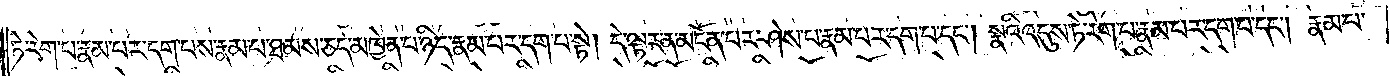ཏེ་རེག་པ་རྣམ་པར་དག་པས་རྣམ་པ་ཐམས་ཅད་མཁྱེན་པ་ཉིད་རྣམ་པར་དག་པ་སྟེ། དེ་ལྟར་ན་མངོན་པར་ཤེས་པ་རྣམ་པར་དག་པ་དང༌། སྣའི་འདུས་ཏེ་རེག་པ་རྣམ་པར་དག་པ་དང༌། རྣམ་པ་
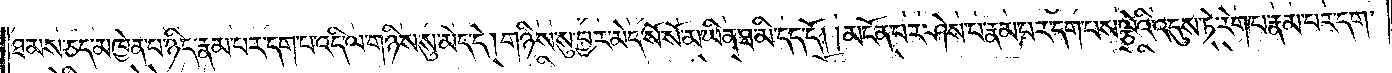ཐམས་ཅད་མཁྱེན་པ་ཉིད་རྣམ་པར་དག་པ་འདི་ལ་གཉིས་སུ་མེད་དེ། གཉིས་སུ་བྱར་མེད་སོ་སོ་མ་ཡིན་ཐ་མི་དད་དོ། །མངོན་པར་ཤེས་པ་རྣམ་པར་དག་པས་ལྕེའི་འདུས་ཏེ་རེག་པ་རྣམ་པར་དག་
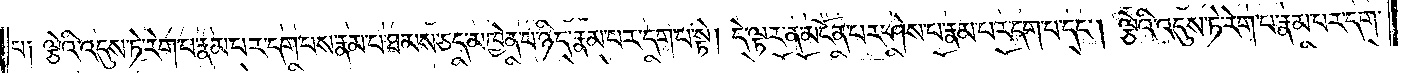པ༑ ལྕེའི་འདུས་ཏེ་རེག་པ་རྣམ་པར་དག་པས་རྣམ་པ་ཐམས་ཅད་མཁྱེན་པ་ཉིད་རྣམ་པར་དག་པ་སྟེ། དེ་ལྟར་ན་མངོན་པར་ཤེས་པ་རྣམ་པར་དག་པ་དང༌། ལྕེའི་འདུས་ཏེ་རེག་པ་རྣམ་པར་དག་
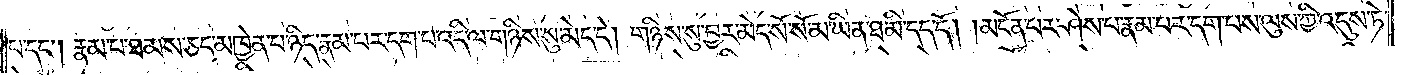པ་དང༌། རྣམ་པ་ཐམས་ཅད་མཁྱེན་པ་ཉིད་རྣམ་པར་དག་པ་འདི་ལ་གཉིས་སུ་མེད་དེ། གཉིས་སུ་བྱར་མེད་སོ་སོ་མ་ཡིན་ཐ་མི་དད་དོ། །མངོན་པར་ཤེས་པ་རྣམ་པར་དག་པས་ལུས་ཀྱི་འདུས་ཏེ་
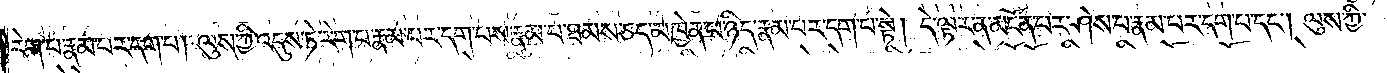རེག་པ་རྣམ་པར་དག་པ། ལུས་ཀྱི་འདུས་ཏེ་རེག་པ་རྣམ་པར་དག་པས་རྣམ་པ་ཐམས་ཅད་མཁྱེན་པ་ཉིད་རྣམ་པར་དག་པ་སྟེ། དེ་ལྟར་ན་མངོན་པར་ཤེས་པ་རྣམ་པར་དག་པ་དང༌། ལུས་ཀྱི་
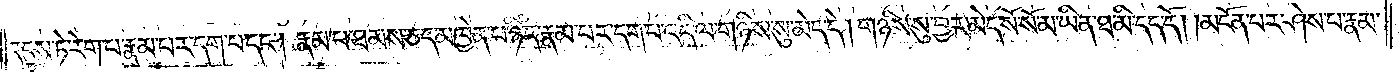འདུས་ཏེ་རེག་པ་རྣམ་པར་དག་པ་དང༌། རྣམ་པ་ཐམས་ཅད་མཁྱེན་པ་ཉིད་རྣམ་པར་དག་པ་འདི་ལ་གཉིས་སུ་མེད་དེ། གཉིས་སུ་བྱར་མེད་སོ་སོ་མ་ཡིན་ཐ་མི་དད་དོ། །མངོན་པར་ཤེས་པ་རྣམ་
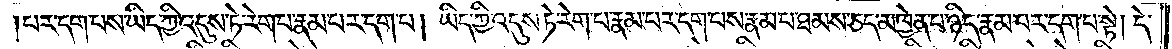པར་དག་པས་ཡིད་ཀྱི་འདུས་ཏེ་རེག་པ་རྣམ་པར་དག་པ། ཡིད་ཀྱི་འདུས་ཏེ་རེག་པ་རྣམ་པར་དག་པས་རྣམ་པ་ཐམས་ཅད་མཁྱེན་པ་ཉིད་རྣམ་པར་དག་པ་སྟེ། དེ་
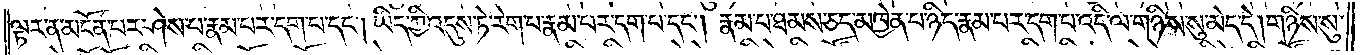ལྟར་ན་མངོན་པར་ཤེས་པ་རྣམ་པར་དག་པ་དང༌། ཡིད་ཀྱི་འདུས་ཏེ་རེག་པ་རྣམ་པར་དག་པ་དང༌། རྣམ་པ་ཐམས་ཅད་མཁྱེན་པ་ཉིད་རྣམ་པར་དག་པ་འདི་ལ་གཉིས་སུ་མེད་དེ། གཉིས་སུ་
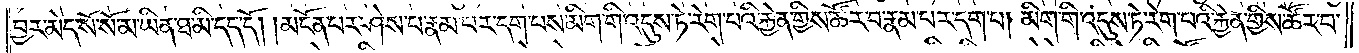བྱར་མེད་སོ་སོ་མ་ཡིན་ཐ་མི་དད་དོ། །མངོན་པར་ཤེས་པ་རྣམ་པར་དག་པས་མིག་གི་འདུས་ཏེ་རེག་བའི་རྐྱེན་གྱིས་ཚོར་བ་རྣམ་པར་དག་པ། མིག་གི་འདུས་ཏེ་རེག་པའི་རྐྱེན་གྱིས་ཚོར་བ་
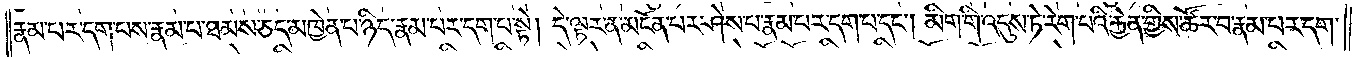རྣམ་པར་དག་པས་རྣམ་པ་ཐམས་ཅད་མཁྱེན་པ་ཉིད་རྣམ་པར་དག་པ་སྟེ། དེ་ལྟར་ན་མངོན་པར་ཤེས་པ་རྣམ་པར་དག་པ་དང༌། མིག་གི་འདུས་ཏེ་རེག་པའི་རྐྱེན་གྱིས་ཚོར་བ་རྣམ་པར་དག་
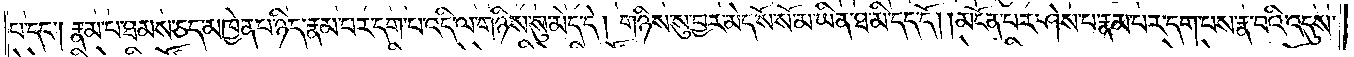པ་དང༌། རྣམ་པ་ཐམས་ཅད་མཁྱེན་པ་ཉིད་རྣམ་པར་དག་པ་འདི་ལ་གཉིས་སུ་མེད་དེ། གཉིས་སུ་བྱར་མེད་སོ་སོ་མ་ཡིན་ཐ་མི་དད་དོ། །མངོན་པར་ཤེས་པ་རྣམ་པར་དག་པས་རྣ་བའི་འདུས་
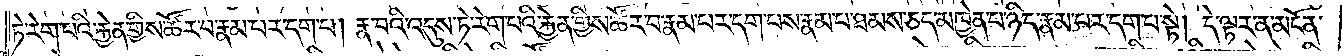ཏེ་རེག་པའི་རྐྱེན་གྱིས་ཚོར་བ་རྣམ་པར་དག་པ། རྣ་བའི་འདུས་ཏེ་རེག་པའི་རྐྱེན་གྱིས་ཚོར་བ་རྣམ་པར་དག་པས་རྣམ་པ་ཐམས་ཅད་མཁྱེན་པ་ཉིད་རྣམ་པར་དག་པ་སྟེ། དེ་ལྟར་ན་མངོན་
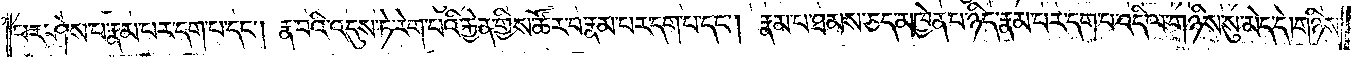པར་ཤེས་པ་རྣམ་པར་དག་པ་དང༌། རྣ་བའི་འདུས་ཏེ་རེག་པའི་རྐྱེན་གྱིས་ཚོར་བ་རྣམ་པར་དག་པ་དང༌། རྣམ་པ་ཐམས་ཅད་མཁྱེན་པ་ཉིད་རྣམ་པར་དག་པ་འདི་ལ་གཉིས་སུ་མེད་དེ། གཉིས་
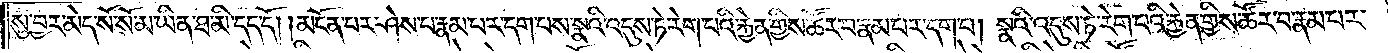སུ་བྱར་མེད་སོ་སོ་མ་ཡིན་ཐ་མི་དད་དོ། །མངོན་པར་ཤེས་པ་རྣམ་པར་དག་པས་སྣའི་འདུས་ཏེ་རེག་པའི་རྐྱེན་གྱིས་ཚོར་བ་རྣམ་པར་དག་པ། སྣའི་འདུས་ཏེ་རེག་པའི་རྐྱེན་གྱིས་ཚོར་བ་རྣམ་པར་
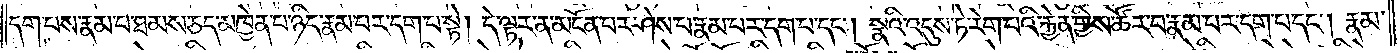དག་པས་རྣམ་པ་ཐམས་ཅད་མཁྱེན་པ་ཉིད་རྣམ་པར་དག་པ་སྟེ། དེ་ལྟར་ན་མངོན་པར་ཤེས་པ་རྣམ་པར་དག་པ་དང༌། སྣའི་འདུས་ཏེ་རེག་པའི་རྐྱེན་གྱིས་ཚོར་བ་རྣམ་པར་དག་པ་དང༌། རྣམ་
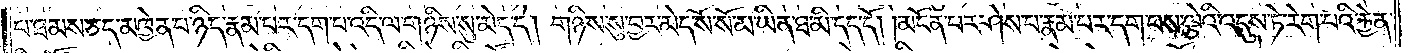པ་ཐམས་ཅད་མཁྱེན་པ་ཉིད་རྣམ་པར་དག་པ་འདི་ལ་གཉིས་སུ་མེད་དེ། གཉིས་སུ་བྱར་མེད་སོ་སོ་མ་ཡིན་ཐ་མི་དད་དོ། །མངོན་པར་ཤེས་པ་རྣམ་པར་དག་པས་ལྕེའི་འདུས་ཏེ་རེག་པའི་རྐྱེན་
